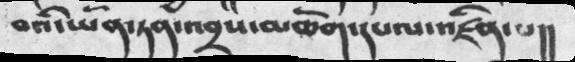བའི་ཡོན་ཏན་འབྲས་མཆོག་དཔལ་འཛིན་པ།།
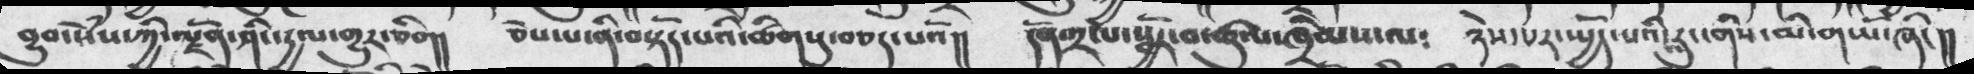བྱུབ་སེཾས་ཀྱི་ལྗོན་ཤིང་དྱལ་གྱུར་ཅིག།  ཅེས་པ་ནི་བསྟོད་པའི་ཚིགསུ་བཅད་པའོ།།  དོན་༢་པ་སྦྱོར་བ་ཚུལ་ཁྲིམས་ལ༴  ཉེས་པར་སྤྱོད་པའི་རླུང་གིས་མི་གཡོ་ཞིང།།
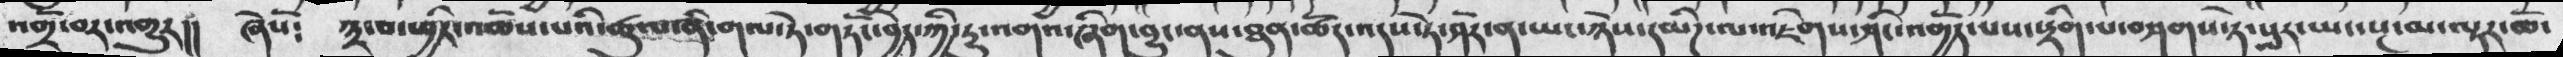འགྲོ་བར་འགྱུར།། ཞེསོ༴ ༣་བ་ཕྱིར་འཆོས་པའི་ཚུལ་ནི་གལ་ཏེ་གཏོང་བྱེད་ཀྱི་རུ་འགའ་ཞིག་བྱུང་ནས་ཐུན་ཚོད་འདས་ཏེ་ཤོར་ན་ཡང་ཉེས་དམིཌ་ལ་འཇིགས་ཤིང་འགྱོད་པས་སྡིག་པ་བཤགས་ཏེ་སླར་ཡང་སྔ་མ་ལྟར་ཆོ་
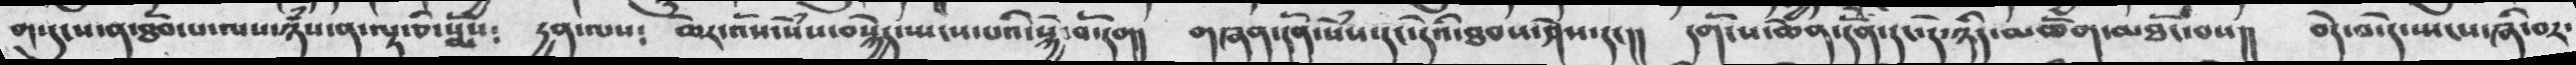གསུངས་ན་ཐོབ་པ་ལས་ཉཾས་ན་ལྟ་ཅི་སྨོས༴ དྱན་ལས༴ ཆར་སོས་སེཾས་བསྐྱེད་སྤངས་པའི་སྐྱེ་བོ་དག། གཞན་དོན་སེཾས་དང་འདེའི་ཐབས་ཤེས་དང།། དགོངས་ཆེན་དོན་དང་དེ་ཉིད་མཆོག་མཐོང་བས།། བདེ་བ་དེ་ཡངས་ཞི་བར་
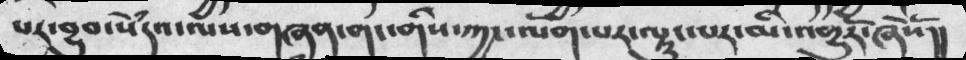པར་བྱུབ་སེཾདའ་ལས་གཞན་གང་གིས་ཀྱང་ལོག་པར་ལྟུང་པར་མི་འགྱུརོ་ཞེསོ།།
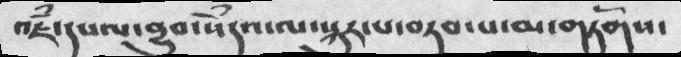འཇཾ་དཔལ་བྱུབ་སེཾདའ་ལ་སྐུར་པ་བཏབ་པ་མ་གཏོགས་
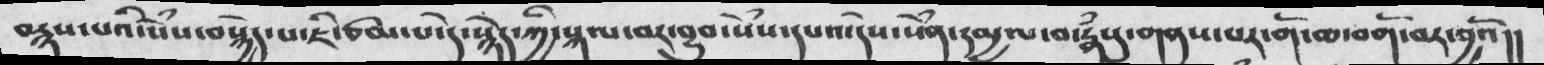བརྙས་པའི་སེཾས་བསྐྱེད་པ་ཇི་ཙམ་པ་དེ་སྙེད་ཀྱི་སྐལ་བར་བྱུབ་སེཾས་དཔའ་དེས་སེཾན་དམྱལ་བ་རྣཾསུ་གནས་པར་གོ་ཆ་བགོ་བར་བྱའོ།།
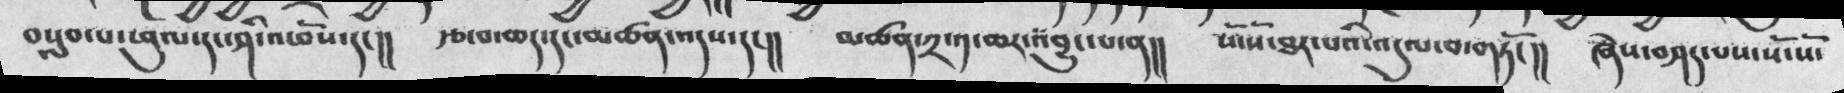བསླབ་པ་ཕུལ་དང་ཤི་འཕོས་དང།།  རྩ་བ་ཆད་དང་མཚན་འདས་དང།།  མཚན་༢་༡་ཆར་འབྱུང་པ་ན།།  སོ་སོ་ཐར་པའི་འདུལ་བ་གཏོང།། ཞེས་བཤད་པས་སོ་སོ་
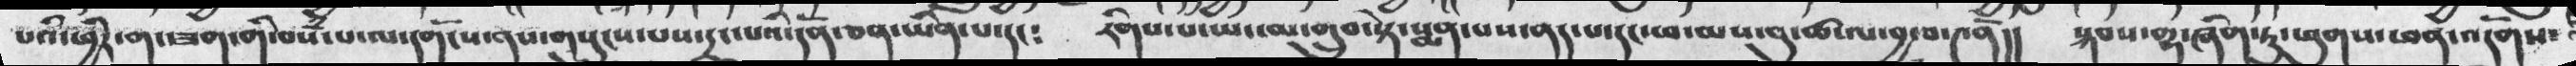པའི་ཕྱིར་གང་ཟག་གོ་བསཾ་པ་ལ་དགོངས་ནས་གསུངས་པས་དྲང་པའི་དོན་ཅན་ཡིན་པ་དང༴  རིགས་པ་ཡང་མ་གྲུབ་སྟེ་སྨན་པས་ནད་པ་དང་ཕ་མས་བུ་ཚ་ལ་བྱ་བ་༤ནོ།།  སྐབས་གྷ་ཞིག་ཏུ་ཕུགས་ཕན་འདོགས་
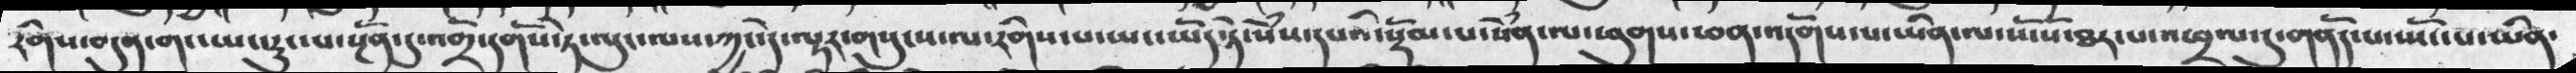རིགས་བདུན་གང་ཡང་རུང་པ་སྔོན་དུ་འགྲོ་དགོས་ཏེ་ལུང་ལས་ཀྱང་དེ་ལྟར་གསུངས་ལ་རིགས་པ་ཡང་ཡོད་ཏེ་སེཾས་དཔའི་སྡོམ་པ་སེཾན་ལ་ཕུགས་ཕན་འདོགས་པ་ཡིན་ལ་སོ་སོ་ཐར་པ་འཕྲལ་དུ་གནོད་པ་སྤོང་པ་ཡིན་
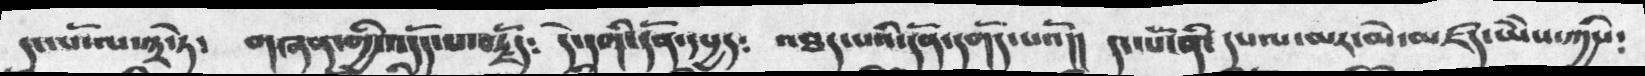དང་པོ་ལ་༣་ཏེ་  གཞན་གྱི་འདོད་པ་བརྗོད༴  དེ་དགི་དོན་དཔྱད༴  འཐད་པའི་དོན་དགོད་པའོ།།  དང་པོ་ནི་ དཔལ་མར་མེ་མཛད་ཡཻས་ཀྱིས༴
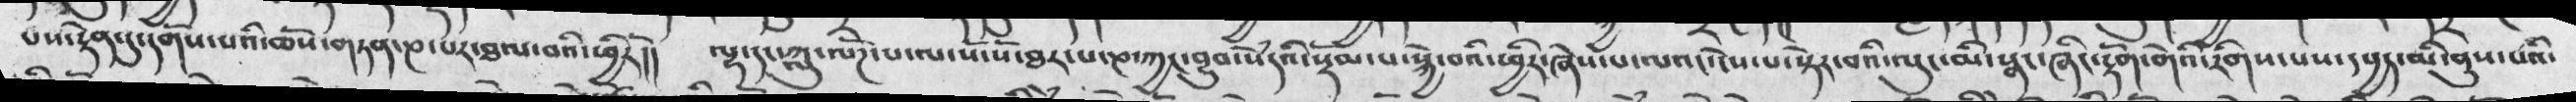པས་རྟེན་དུ་དགོས་པའི་ཆོས་གཏན་ཎ་པར་ཐལ་བའི་ཕྱིརོ།། ལྷ་དང་ཀླུ་ལེཌ་པ་ལ་སོ་སོ་ཐར་པ་ཎ་ཀྱང་བྱུབ་སེཾདའ་སྡོམ་པ་སྐྱེ་བའི་ཕྱིར་ཞེས་པ་ལའང་ངེས་པ་སྟེར་བའི་ལུང་མི་སྣང་ཞིང་རྟོག་གེའི་རིགས་པས་དཔྱད་མི་ནུས་པའི་
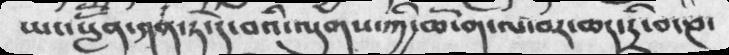ཡང་སྔོན་ཤན་ཏ་དེ་བའི་ལུགས་ཀྱི་ཆོ་ག་ལ་བར་ཆད་དྲི་བ་ཎ་
